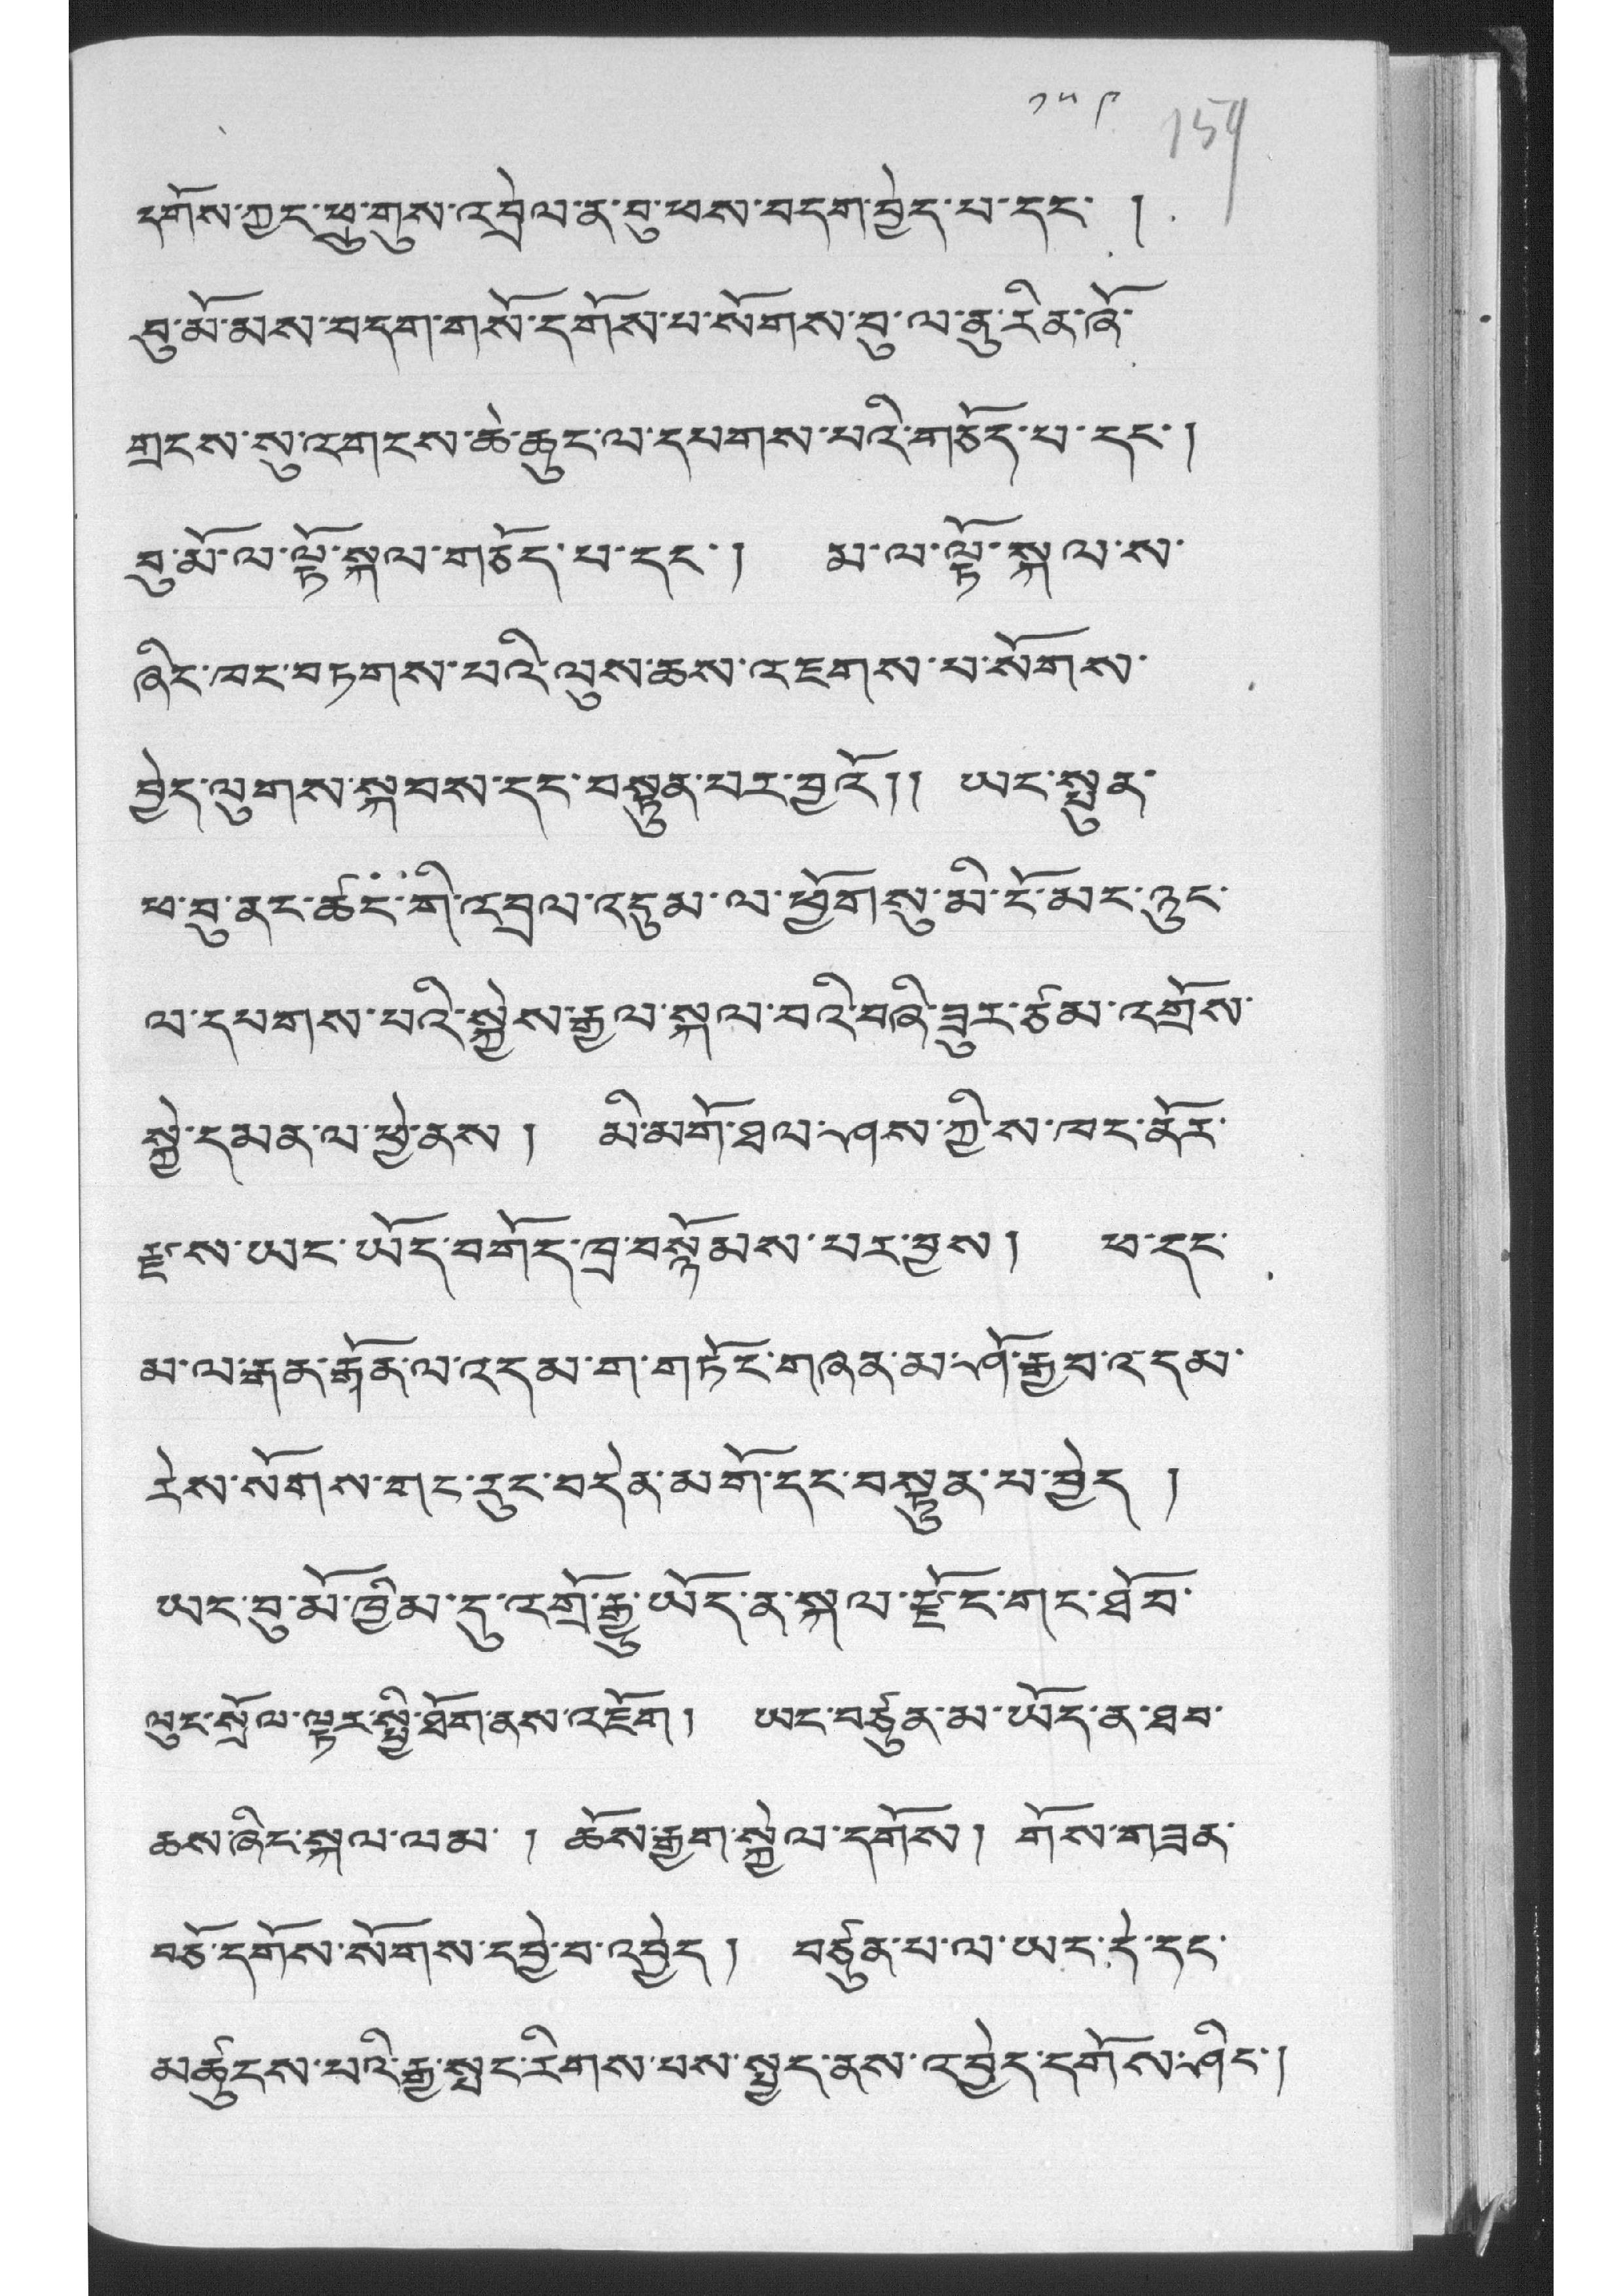༡༥༩
དགོས་ཀྱང་ཕྲུ་གུས་འབྲེལ་ན་བུ་ཕས་བདག་བྱེད་པ་དང་ །
བུ་མོ་མས་བདག་གསོ་དགོས་པ་སོགས་བུ་ལ་ནུ་རིན་ཞོ་
གྲངས་སུ་འགངས་ཆེ་ཆུང་ལ་དཔགས་པའི་གཅོད་པ་དང་།
བུ་མོ་ལ་ལྟོ་སྐལ་གཅོད་པ་དང་། མ་ལ་ལྟོ་སྐལ་ས་
ཞིང་ཁང་བཏགས་པའི་ལུས་ཆས་འཇགས་པ་སོགས་
བྱེད་ལུགས་སྐབས་དང་བསྟུན་པར་བྱའོ།། ཡང་སྤུན་
ཕ་བུ་ནང་ཚང་གི་འབྲེལ་འདུམ་ལ་ཕྱོགསུ་མི་ངོ་མང་ཉུང་
ལ་དམགས་པའི་སྐྱེས་རྒྱལ་སྐལ་བའི་བཞི་ཟུར་ཙམ་འགྲོས་
སྐྱེ་དམན་ལ་ཕྱེ་ནས། མི་མགོ་ཐལ་ཤས་ཀྱི་ས་ཁང་ནོར་
རྫ་ས་ཡང་ཡོད་བགོད་ཁྲ་བསྙོམས་པར་བྱས། ཕ་དང་
མ་ལ་རྒན་རྒོན་ལ་འདམ་ག་གཏོང་གཞན་མ་ཤོ་རྒྱབ་འདམ་
རེས་སོགས་གང་རུང་བདེན་མགོ་དང་བསྟུན་པ་བྱེད །
ཡང་བུ་མོ་ཁྱིམ་དུ་འགྲོ་རྒྱུ་ཡོད་ན་སྐལ་རྫོང་གང་ཐོབ་
ལུང་སྲོལ་ལྟར་སྤྱི་ཐོག་ནས་འཇོག ། ཡང་བཙུན་མ་ཡོད་ན་ཐབ་
ཆས་ཞིང་སྐལ་ལམ་ ། ཆོས་རྒྱག་སྐྱེལ་དགོས། གོས་གཟན་
བཅོ་དགོས་སོགས་དབྱེ་བ་འབྱེད། བཙུན་པ་ལ་ཡང་དེ་དང་
མཚུངས་པའི་རྒྱ་སྤང་རིགས་པས་སྤྱད་ནས་འབྱེད་དགོས་ཤིང་།
